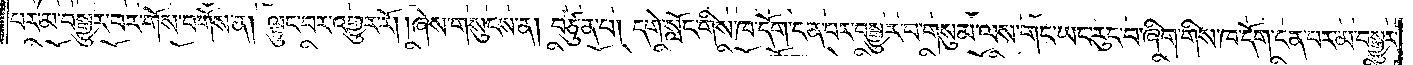པར་མ་བསྒྱུར་བར་གོས་བགོས་ན། ལྟུང་བར་འགྱུར་རོ། །ཞེས་གསུངས་ན། བཙུན་པ། དགེ་སློང་གིས་ཁ་དོག་ངན་པར་བསྒྱུར་བ་གསུམ་ལས་གང་ཡང་རུང་བ་ཞིག་གིས་ཁ་དོག་ངན་པར་མ་བསྒྱུར་
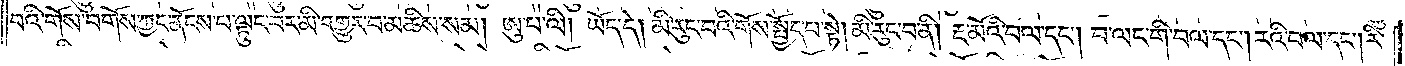བའི་གོས་བགོས་ཀྱང་ནོངས་པ་ལྟུང་བར་མི་འགྱུར་བ་མཆིས་སམ། ཨུ་པ་ལི། ཡོད་དེ། མི་རུང་བའི་གོས་སྤྱོད་པ་སྟེ། མི་རུང་བ་ནི། རྔ་མོའི་བལ་དང༌། བ་ལང་གི་བལ་དང༌། རའི་བལ་དང༌། རི་
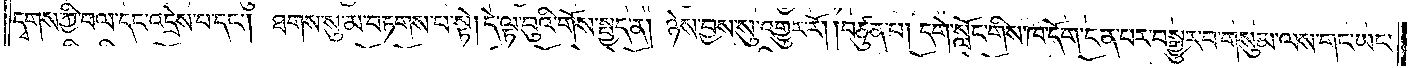དྭགས་ཀྱི་བལ་དང་འདྲེས་པ་དང༌། ཐགས་སུ་མ་བཏགས་པ་སྟེ། དེ་ལྟ་བུའི་གོས་སྤྱད་ན། ཉེས་བྱས་སུ་འགྱུར་རོ། །བཙུན་པ། དགེ་སློང་གིས་ཁ་དོག་ངན་པར་བསྒྱུར་བ་གསུམ་ལས་གང་ཡང་
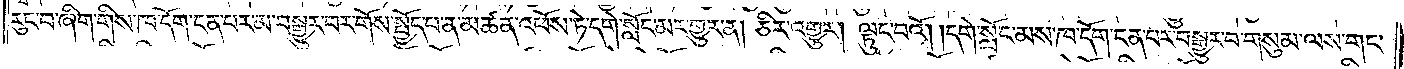རུང་བ་ཞིག་གིས་ཁ་དོག་ངན་པར་མ་བསྒྱུར་བར་གོས་སྤྱོད་པ་ན་མཚན་འཕོས་ཏེ་དགེ་སློང་མར་གྱུར་ན། ཅིར་འགྱུར། ལྟུང་བའོ། །དགེ་སློང་མས་ཁ་དོག་ངན་པར་བསྒྱུར་བ་གསུམ་ལས་གང་
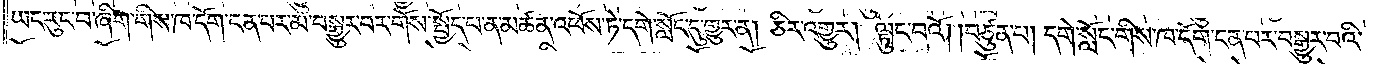ཡང་རུང་བ་ཞིག་གིས་ཁ་དོག་ངན་པར་མ་བསྒྱུར་བར་གོས་སྤྱོད་པ་ན་མཚན་འཕོས་ཏེ་དགེ་སློང་དུ་གྱུར་ན། ཅིར་འགྱུར། ལྟུང་བའོ། །བཙུན་པ། དགེ་སློང་གིས་ཁ་དོག་ངན་པར་བསྒྱུར་བའི་
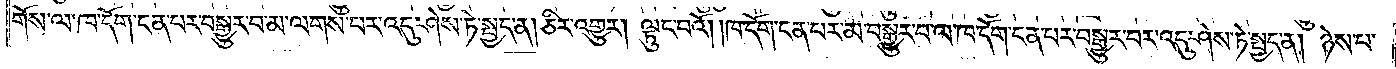གོས་ལ་ཁ་དོག་ངན་པར་བསྒྱུར་བ་མ་ལགས་པར་འདུ་ཤེས་ཏེ་སྤྱད་ན། ཅིར་འགྱུར། ལྟུང་བའོ། །ཁ་དོག་ངན་པར་མ་བསྒྱུར་བ་ལ་ཁ་དོག་ངན་པར་བསྒྱུར་བར་འདུ་ཤེས་ཏེ་སྤྱད་ན། ཉེས་པ་
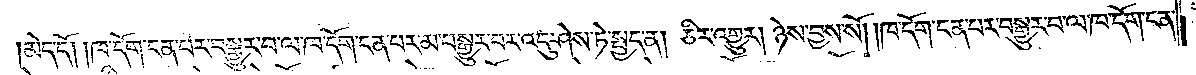མེད་དོ། །ཁ་དོག་ངན་པར་བསྒྱུར་བ་ལ་ཁ་དོག་ངན་པར་མ་བསྒྱུར་བར་འདུ་ཤེས་ཏེ་སྤྱད་ན། ཅིར་འགྱུར། ཉེས་བྱས་སོ། །ཁ་དོག་ངན་པར་བསྒྱུར་བ་ལ་ཁ་དོག་ངན་
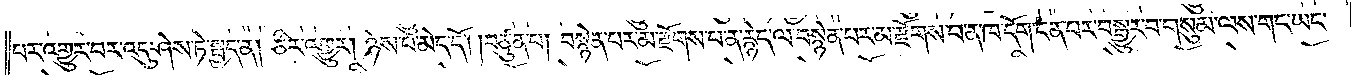པར་འགྱུར་བར་འདུ་ཤེས་ཏེ་སྤྱད་ན། ཅིར་འགྱུར། ཉེས་པ་མེད་དོ། །བཙུན་པ། བསྙེན་པར་མ་རྫོགས་པ་ན་རྙེད་ལ་བསྙེན་པར་མ་རྫོགས་པ་ན་ཁ་དོག་ངན་པར་བསྒྱུར་བ་གསུམ་ལས་གང་ཡང་
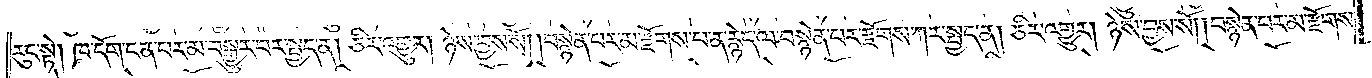རུང་སྟེ། ཁ་དོག་ངན་པར་མ་བསྒྱུར་བར་སྤྱད་ན། ཅིར་འགྱུར། ཉེས་བྱས་སོ། །བསྙེན་པར་མ་རྫོགས་པ་ན་རྙེད་ལ་བསྙེན་པར་རྫོགས་ཀར་སྤྱད་ན། ཅིར་འགྱུར། ཉེས་བྱས་སོ། །བསྙེན་པར་མ་རྫོགས་
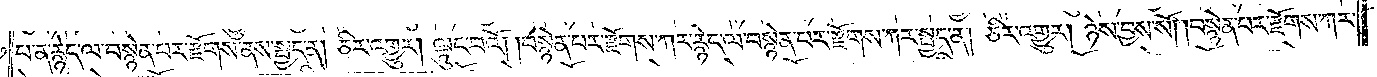པ་ན་རྙེད་ལ་བསྙེན་པར་རྫོགས་ནས་སྤྱད་ན། ཅིར་འགྱུར། ལྟུང་བའོ། །བསྙེན་པར་རྫོགས་ཀར་རྙེད་ལ་བསྙེན་པར་རྫོགས་ཀར་སྤྱད་ན། ཅིར་འགྱུར། ཉེས་བྱས་སོ། །བསྙེན་པར་རྫོགས་ཀར་
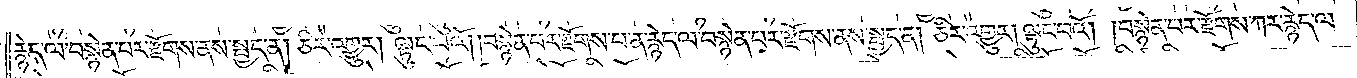རྙེད་ལ་བསྙེན་པར་རྫོགས་ནས་སྤྱད་ན། ཅིར་འགྱུར། ལྟུང་བའོ། །བསྙེན་པར་རྫོགས་པ་ན་རྙེད་ལ་བསྙེན་པར་རྫོགས་ནས་སྤྱད་ན། ཅིར་འགྱུར། ལྟུང་བའོ། །བསྙེན་པར་རྫོགས་ཀར་རྙེད་ལ་
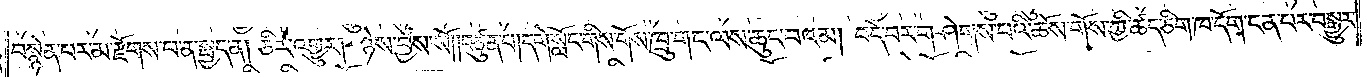བསྙེན་པར་མ་རྫོགས་པ་ན་སྤྱད་ན། ཅིར་འགྱུར། ཉེས་བྱས་སོ། །བཙུན་པ། དགེ་སློང་གིས་གོས་ཁྲུ་གང་ལས་ཆུང་བའམ། བདེ་བར་གཤེགས་པའི་ཆོས་གོས་ཀྱི་ཚད་ཅིག་ཁ་དོག་ངན་པར་བསྒྱུར་
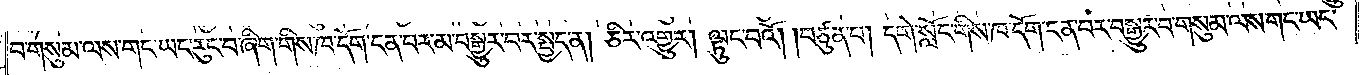བ་གསུམ་ལས་གང་ཡང་རུང་བ་ཞིག་གིས་ཁ་དོག་ངན་པར་མ་བསྒྱུར་བར་སྤྱད་ན། ཅིར་འགྱུར། ལྟུང་བའོ། །བཙུན་པ། དགེ་སློང་གིས་ཁ་དོག་ངན་པར་བསྒྱུར་བ་གསུམ་ལས་གང་ཡང་
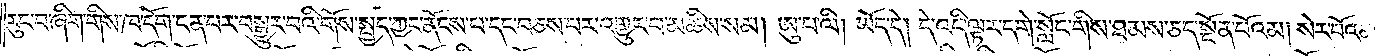རུང་བ་ཞིག་གིས་ཁ་དོག་ངན་པར་བསྒྱུར་བའི་གོས་སྤྱད་ཀྱང་ནོངས་པ་དང་བཅས་པར་འགྱུར་བ་མཆིས་སམ། ཨུ་པ་ལི། ཡོད་དེ། དེ་འདི་ལྟར་དགེ་སློང་གིས་ཐམས་ཅད་སྔོན་པོའམ། སེར་པོའམ།
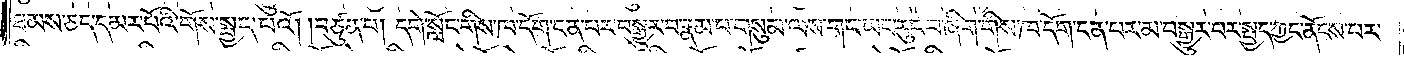ཐམས་ཅད་དམར་པོའི་གོས་སྤྱད་པའོ། །བཙུན་པ། དགེ་སློང་གིས་ཁ་དོག་ངན་པར་བསྒྱུར་བ་རྣམ་པ་གསུམ་ལས་གང་ཡང་རུང་བ་ཞིག་གིས་ཁ་དོག་ངན་པར་མ་བསྒྱུར་བར་སྤྱད་ཀྱང་ནོངས་པར་
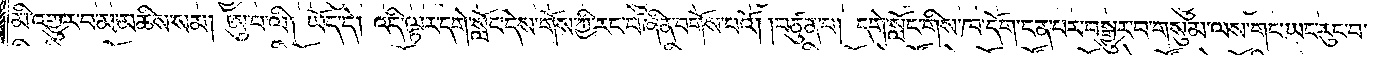མི་འགྱུར་བ་མ་མཆིས་སམ། ཨུ་པ་ལི། ཡོད་དེ། འདི་ལྟར་དགེ་སློང་དེས་གོས་ཀྱི་རང་བཞིན་བགོས་པའོ། །བཙུན་པ། དགེ་སློང་གིས་ཁ་དོག་ངན་པར་བསྒྱུར་བ་གསུམ་ལས་གང་ཡང་རུང་བ་
